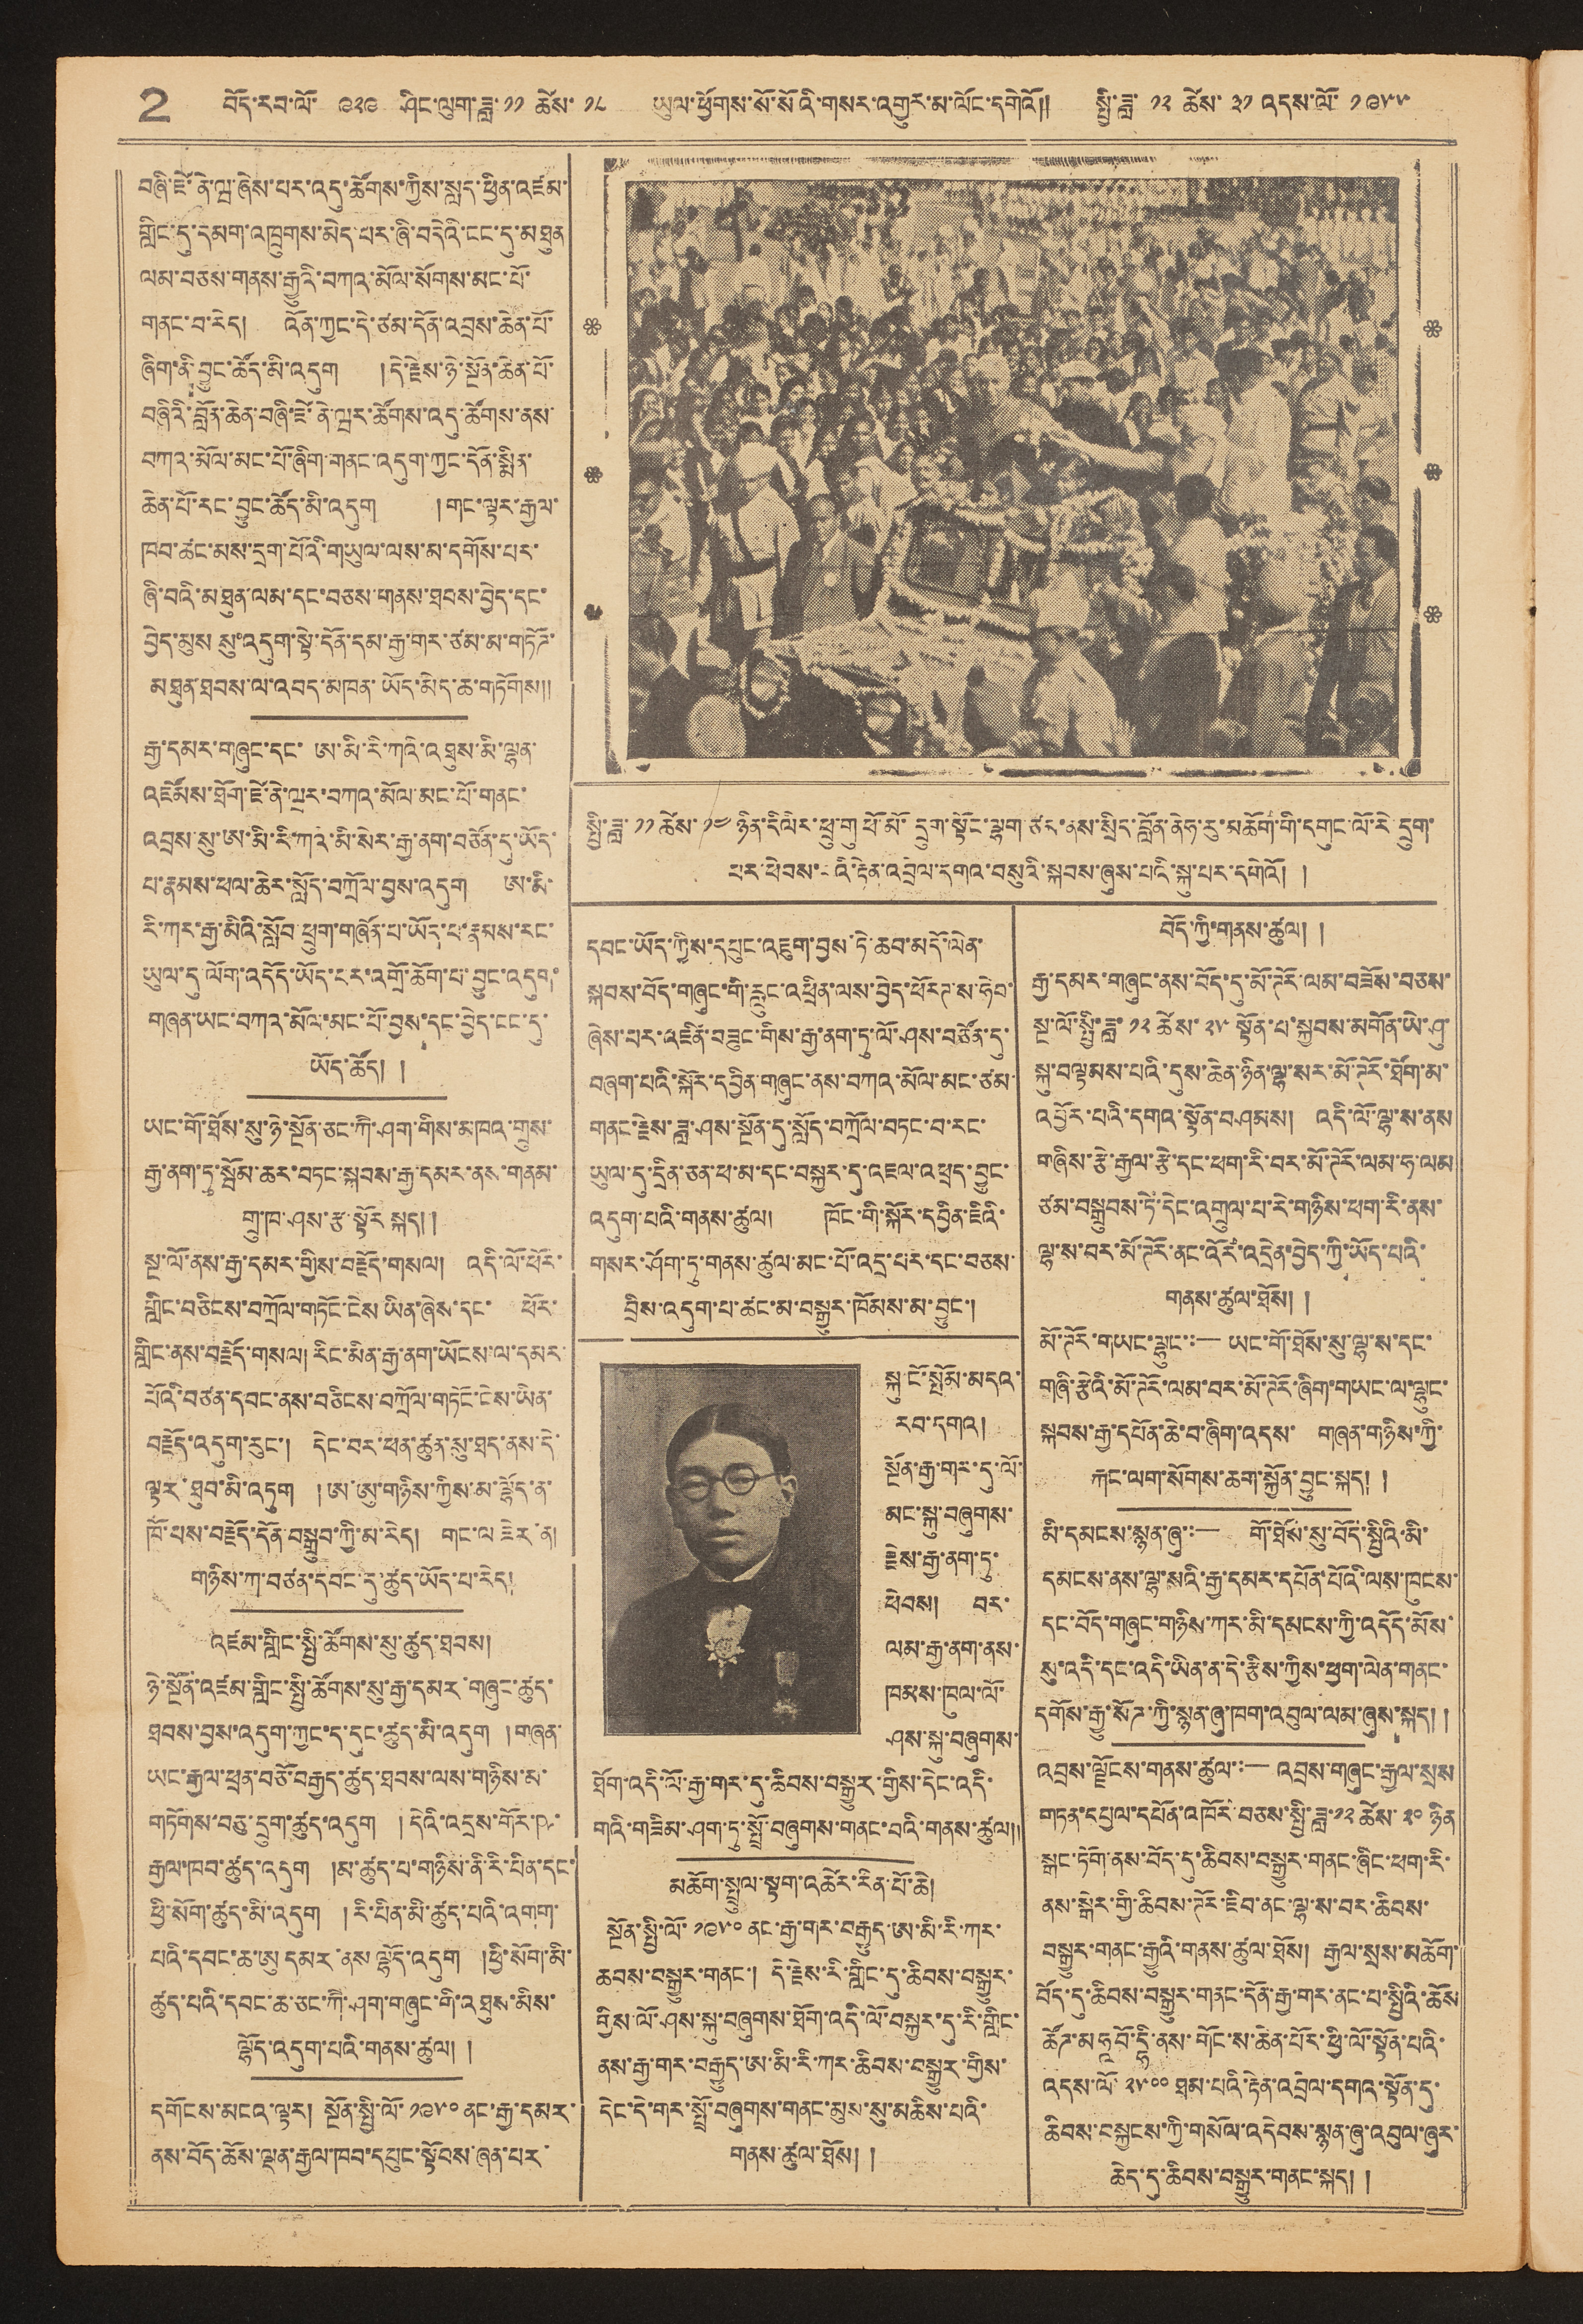2 བོད་རབ་ལོ་ ༩༢༩ ཤིང་ལུག་ཟླ་ ༡༡ ཚེས་ ༡༨ ཡུལ་ཕྱོགས་སོ་སོའི་གསར་འགྱུར་མ་ལོང་དགེའོ།། སྤྱི་ཟླ་ ༡༢ ཚེས་ ༣༡ འདས་ལོ་ ༡༩༥༥
བཞི་ཛེ་ནེ་ཝ་ཞེས་པར་འདུ་ཚོགས་ཀྱིས་སླད་ཕྱིན་འཛམ་
གླིང་དུ་དམག་འཁྲུགས་མེད་པར་ཞི་བདེའི་ངང་དུ་མཐུན
ལམ་བཅས་གནས་རྒྱུའི་བཀའ་མོལ་སོགས་མང་པོ་
གནང་བ་རེད། འོན་ཀྱང་དེ་ཙམ་དོན་འབྲས་ཆེན་པོ་
ཞིག་ནི་བྱུང་ཚོད་མི་འདུག །དེ་རྗེས་ཉེ་སྔོན་ཆེན་པོ་
བཞིའི་བློན་ཆེན་བཞི་ཛེ་ནེ་ཝར་ཚོགས་འདུ་ཚོགས་ནས་
བཀའ་མོལ་མང་པོ་ཞིག་གནང་འདུག་ཀྱང་དོན་སྨིན་
ཆེན་པོ་རང་བྱུང་ཚོད་མི་འདུག །གང་ལྟར་རྒྱལ་
ཁབ་ཚང་མས་དྲག་པོའི་གཡུལ་ལས་མ་དགོས་པར་
ཞི་བའི་མཐུན་ལམ་དང་བཅས་གནས་ཐབས་བྱེད་དང་
བྱེད་མུས སུ་འདུག་སྟེ་དོན་དམ་རྒྱ་གར་ཙམ་མ་གཏོཌ་
མཐུན་ཐབས་ལ་འབད་མཁན་ཡོད་མེད་ཆ་གཏོགས།།
རྒྱ་དམར་གཞུང་དང་ ཨ་མི་རི་ཀའི་འཐུས་མི་ལྷན་
འཛོམས་ཐོག་ཛེ་ནེ་ཝར་བཀའ་མོལ་མང་པོ་གནང་
འབྲས་སུ་ཨ་མི་རི་ཀའ་མི་སེར་རྒྱ་ནག་བཙོན་དུ་ཡོད་
པ་རྣམས་ཕལ་ཆེར་སློད་བཀྲོལ་བྱས་འདུག ཨ་མི་
རི་ཀར་རྒྱ་མིའི་སློབ་ཕྲུག་གཞོན་པ་ཡོད་པ་རྣམས་རང་
ཡུལ་དུ་ལོག་འདོད་ཡོད་པར་འགྲོ་ཆོག་པ་བྱུང་འདུག་
གཞན་ཡང་བཀའ་མོལ་མང་པོ་བྱས་དང་བྱེད་ངང་དུ་
ཡོད་ཆོད། །
ཡང་གོ་ཐོས་སུ་ཉེ་སྔོན་ཅང་ཀཻ་ཤག་གིས་མཁའ་གྲུས་
རྒྱ་ནག་ཏུ་སྦོམ་ཆར་བཏང་སྐབས་རྒྱ་དམར་ནས་གནམ་
གྲུ་ཁ་ཤས་རྩ་སྟོར་སྐད། །
སྔ་ལོ་ནས་རྒྱ་དམར་གྱིས་བརྗོད་གསལ། འདི་ལོ་ཕོར་
གླིང་བཅིངས་བཀྲོལ་གཏོང་ངེས ཡིན་ཞེས་དང་ ཕོར་
གླིང་ནས་བརྗོད་གསལ། རིང་མིན་རྒྱ་ནག་ཡོངས་ལ་དམར་
པོའི་བཙན་དབང་ནས་བཅིངས་བཀྲོལ་གཏོང་ངེས་ཡིན་
བརྗོད་འདུག་རུང་། དེང་བར་ཕན་ཚུན་སུ་ཐད་ནས་དེ་
ལྟར་ཐུབ་མི་འཏུག །ཨ་ཨུ་གཉིས་ཀྱིས་མ་ལྷོད་ན་
ཁོ་པས་བརྗོད་དོན་བསྒྲུབ་ཀྱི་མ་རེད། གང་ལ ཟེར་ན།
གཉིས་ཀ་བཙན་དབང་དུ་ཚུད་ཡོད་པ་རེད།
འཛམ་གླིང་སྤྱི་ཚོགས་སུ་ཚུད་ཐབས།
ཉེ་སྔོན་འཛམ་གླིང་སྤྱི་ཚོགས་སུ་རྒྱ་དམར་གཞུང་ཚུད་
ཐབས་བྱས་འདུག་ཀྱང་ད་དུང་ཚུད་མི་འདུག །གཞན་
ཡང་རྒྱལ་ཕྲན་བཅོ་བརྒྱད་ཚུད་ཐབས་ལས་གཉིས་མ་
གཏོགས་བཅུ་དྲུག་ཚུད་འདུག །དེའི་འདྲས་གོར་ཥ་
རྒྱལ་ཁབ་ཚུད་འདུག །མ་ཚུད་པ་གཉིས་ནི་རི་པིན་དང་
ཕྱི་སོག་ཚུད་མི་འདུག ། རི་པིན་མི་ཚུད་པའི་འགག་
པའི་དབང་ཆ་ཨུ དམར་ནས ལྷོད་འདུག །ཕྱི་སོག་མི་
ཚུད་པའི་དབང་ཆ་ཅང་ཀཻ་ཤག་གཞུང་གི་འཐུས་མིས་
ལྷོད་འདུག་པའི་གནས་ཚུལ། །
དགོངས་མངའ་ལྟར། སྔོན་སྤྱི་ལོ་ ༡༩༥༠ ནང་རྒྱ་དམར་
ནས་བོད་ཆོས་ལྡན་རྒྱལ་ཁབ་དཔུང་སྟོབས་ཞན་པར་
དབང་ཡོད་ཀྱིས་དཔུང་འཇུག་བྱས་ཏེ་ཆབ་མདོ་ལེན་
སྐབས་བོད་གཞུང་གི་རླུང་འཕྲིན་ལས་བྱེད་ཕོརཊ་ས་ཧེབ་
ཞེས་པར་འཛིན་བཟུང་གིས་རྒྱ་ནག་ཏུ་ལོ་ཤས་བཙོན་དུ་
བཞག་པའི་སྐོར་དབྱིན་གཞུང་ནས་བཀའ་མོལ་མང་ཙམ་
གནང་རྗེས་ཟླ་ཤས་སྔོན་དུ་སློད་བཀྲོལ་བཏང་བ་རང་
ཡུལ་དུ་དྲིན་ཅན་ཕ་མ་དང་བསྐྱར་དུ་འཇལ་འཕྲད་བྱུང་
འདུག་པའི་གནས་ཚུལ། ཁོང་གི་སྐོར་དབྱིན་ཇིའི་
གསར་ཤོག་ཏུ་གནས་ཚུལ་མང་པོ་འདྲ་པར་དང་བཅས་
བྲིས་འདུག་པ་ཚང་མ་བསྒྱུར་ཁོམས་མ་བྱུང་།
སྐུ་ངོ་སྤོམ་མདའ་
རབ་དགའ།
སྔོན་རྒྱ་གར་དུ་ལོ་
མང་སྐུ་བཞུགས་
རྗེས་རྒྱ་ནག་ཏུ་
ཕེབས།  བར་
ལམ་རྒྱ་ནག་ནས་
ཁམས་ཁུལ་ལོ་
ཤས་སྐུ་བཞུགས་
ཐོག་འདི་ལོ་རྒྱ་གར་དུ་ཆིབས་བསྒྱུར་གྱིས་དེང་འདི་
གའི་གཟིམ་ཤག་ཏུ་སྤྲོ་བཞུགས་གནང་བའི་གནས་ཚུལ།།
མཆོག་སྤྲུལ་སྟག་འཚེར་རིན་པོ་ཆེ།
སྔོན་སྤྱི་ལོ་ ༡༩༥༠ ནང་རྒྱ་གར་བརྒྱུད་ཨ་མི་རི་ཀར་
ཆབས་བསྒྱུར་གནང་། དེ་རྗེས་རི་གླིང་དུ་ཆིབས་བསྒྱུར་
གྱིས་ལོ་ཤས་སྐུ་བཞུགས་ཐོག་འདི་ལོ་བསྐྱར་དུ་རི་གླིང་
ནས་རྒྱ་གར་བརྒྱུད་ཨ་མི་རི་ཀར་ཆིབས་བསྒྱུར་གྱིས་
དེང་དེ་གར་སྤྲོ་བཞུགས་གནང་མུས་སུ་མཆིས་པའི་
གནས་ཚུལ་ཐོས། །
སྤྱི་ཟླ་ ༡༡ ཚེས་ ༡༤ ཉིན་དི ལིར་ཕྲུ་གུ ཕོ་མོ་དྲུག་སྟོང་ལྷག་ཙམ་ནས་སྲིད་བློན་ནེཧ་རུ་མཆོག་གི་དགུང་ལོ་རེ དྲུག་
པར་ཕེབས་པའི་རྟེན་འབྲེལ་དགའ་བསུའི་སྐབས་ཞུས་པའི་སྐུ་པར་དགེའོ། །
བོད་ཀྱི་གནས་ཚུལ། །
རྒྱ་དམར་གཞུང་ནས་བོད་དུ་མོ་ཊོར་ལམ་བཟོས་བཅས་
སྔ་ལོ་སྤྱི་ཟླ་ ༡༢ ཚེས་ ༢༥ སྟོན་པ་སྐྱབས་མགོན་ཡེ་ཤུ་
སྐུ་བལྟམས་པའི་དུས་ཆེན་ཉིན་ལྷ་སར་མོ་ཊོར་ཐོག་མ་
འབྱོར་པའི་དགའ་སྟོན་བཤམས། འདི་ལོ་ལྷ་ས་ནས
གཞིས་རྩེ་རྒྱལ་རྩེ་དང་ཕག་རི་བར་མོ་ཊོར་ལམ་ཧ་ལམ
ཙམ་བསྒྲུབས་ཏེ་དེང་འགྲུལ་པ་རེ་གཉིས་ཕག་རི་ནས་
ལྷ་ས་བར་མོ་ཊོར་ནང་འོར་འདྲེན་བྱེད་ཀྱི་ཡོད་པའི་
གནས་ཚུལ་ཐོས། །
མོ་ཊོར་གཡང་ལྷུང་:—
ཡང་གོ་ཐོས་སུ་ལྷ་ས་དང་
གཞི་རྩེའི་མོ་ཊོར་ལམ་བར་མོ་ཊོར་ཞིག་གཡང་ལ་ལྷུང་
སྐབས་རྒྱ་དཔོན་ཆེ་བ་ཞིག་འདས་ གཞན་གཉིས་ཀྱི་
རྐང་ལག་སོགས་ཆག་སྐྱོན་བྱུང་སྐད། །
མི་དམངས་སྙན་ཞུ་:—
གོ་ཐོས་སུ་བོད་སྤྱིའི་མི་
དམངས་ནས་ལྷ་སའི་རྒྱ་དམར་དཔོན་པོའི་ལས་ཁུངས་
དང་བོད་གཞུང་གཉིས་ཀར་མི་དམངས་ཀྱི་འདོད་མོས་
སུ་འདི་དང་འདི་ཡིན་ན་དེ་རྩིས་ཀྱིས་ཕྱག་ལེན་གནང་
དགོས་རྒྱུ་སོཌ་ཀྱི་སྙན་ཞུ་ཁག་འབུལ་ལམ་ཞུས་སྐད། །
འབྲས་ལྗོངས་གནས་ཚུལ་:—
འབྲས་གཞུང་རྒྱལ་སྲས
གཏན་དཔྱལ་དཔོན་འཁོར་བཅས་སྤྱི་ཟླ་༡༢ ཚེས་ ༢༠ ཉིན
སྒང་ཏོག་ནས་བོད་དུ་ཆིབས་བསྒྱུར་གནང་ཞིང་ཕག་རི་
ནས་སྒེར་གྱི་ཆིབས་ཊོར་ཇིབ་ནང་ལྷ་ས་བར་ཆིབས་
བསྒྱུར་གནང་རྒྱུའི་གནས་ཚུལ་ཐོས། རྒྱལ་སྲས་མཆོག་
བོད་དུ་ཆིབས་བསྒྱུར་གནང་དོན་རྒྱ་གར་ནང་པ་སྤྱིའི་ཆོས
ཚོཌ་མ ཧཱ བོ་དྷི་ནས་གོང་ས་ཆེན་པོར་ཕྱི་ལོ་སྟོན་པའི་
འདས་ལོ་ ༢༥༠༠ ཐམ་པའི་རྟེན་འབྲེལ་དགའ་སྟོན་དུ་
ཆིབས་བསྐྱངས་ཀྱི་གསོལ་འདེབས་སྙན་ཞུ་འབུལ་ཞུར་
ཆེད་དུ་ཆིབས་བསྒྱུར་གནང་སྐད། །
